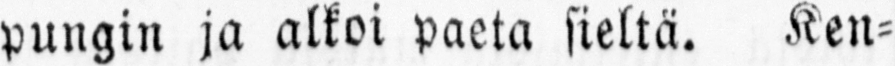pungin ja alkoi paeta sieltä. Ken-
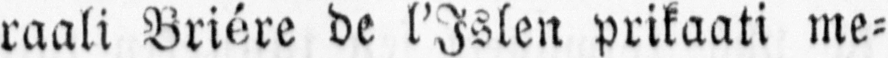raali Briére de l'Islen prikaati me-
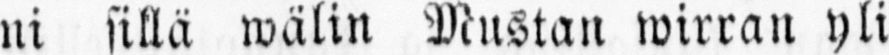ni sillä wälin Mustan wirran yli
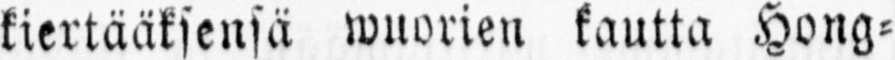kiertääksensä wuorien kautta Hong-
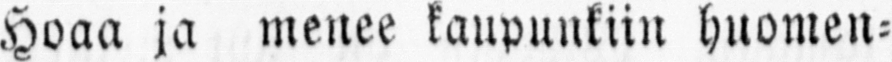Hoaa ja menee kaupunkiin huomen-
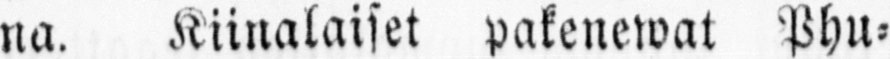na. Kiinalaiset pakenewat Phu-
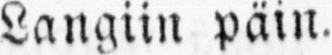Langiin päin.
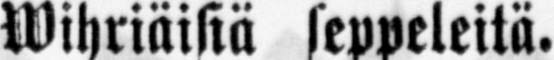Wihriäisiä seppeleitä.
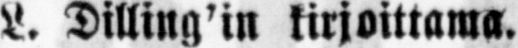L. Dilling'in kirjoittama.
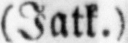(Jatk.)
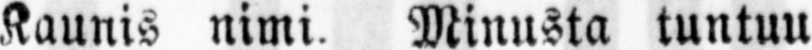„Kaunis nimi. Minusta tuntuu
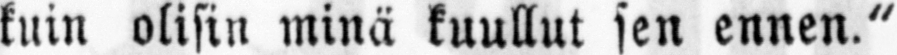kuin olisin minä kuullut sen ennen."
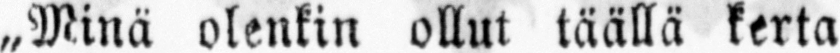„Minä olenkin ollut täällä kerta
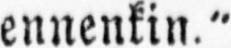ennenkin."
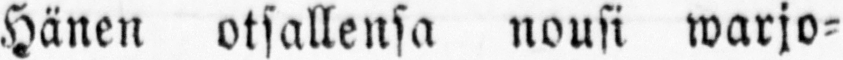Hänen otsallensa nousi warjo-
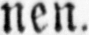nen.
